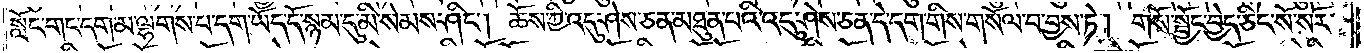སློང་གང་དག་མ་ལྷགས་པ་དག་ཡོད་དོ་སྙམ་དུ་མི་སེམས་ཤིང༌། ཆོས་ཀྱི་འདུ་ཤེས་ཅན་མཐུན་པའི་འདུ་ཤེས་ཅན་དེ་དག་གིས་གསོལ་བ་བྱས་ཏེ། གསོ་སྦྱོང་བྱེད་ཅིང་སོ་སོར་
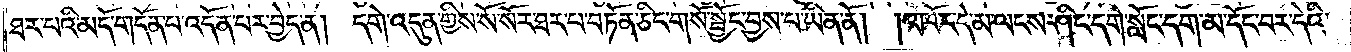ཐར་པའི་མདོ་གདོན་པ་འདོན་པར་བྱེད་ན། དགེ་འདུན་གྱིས་སོ་སོར་ཐར་པ་བཏོན་ཅིང་གསོ་སྦྱོང་བྱས་པ་ཡིན་ནོ། །འཁོར་དེ་མ་ལངས་ཤིང་དགེ་སློང་དག་མདོང་བར་དེའི་
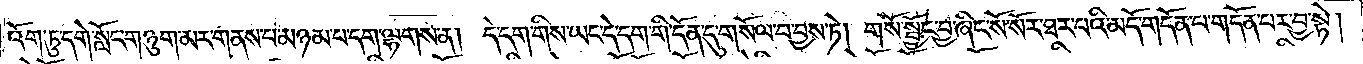འོག་ཏུ་དགེ་སློང་གཉུག་མར་གནས་པ་མཉམ་པ་དག་ལྷགས་ན། དེ་དག་གིས་ཡང་དེ་དག་གི་དོན་དུ་གསོལ་བ་བྱས་ཏེ། གསོ་སྦྱོང་བྱ་ཞིང་སོ་སོར་ཐར་བའི་མདོ་གདོན་པ་གདོན་པར་བྱ་སྟེ།
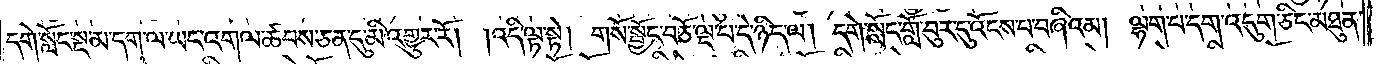དགེ་སློང་སྔ་མ་དག་ལ་ཡང་འགལ་ཚབས་ཅན་དུ་མི་འགྱུར་རོ། །འདི་ལྟ་སྟེ། གསོ་སྦྱོང་བཅོ་ལྔ་པ་དེ་ཉིད་ལ། དགེ་སློང་གློ་བུར་དུ་འོངས་པ་བཞིའམ། ལྷག་པ་དག་འདུག་ཅིང་མཐུན་
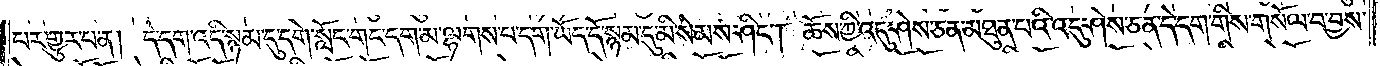པར་གྱུར་པ་ན། དེ་དག་འདི་སྙམ་དུ་དགེ་སློང་གང་དག་མ་ལྷགས་པ་དག་ཡོད་དོ་སྙམ་དུ་མི་སེམས་ཤིང༌། ཆོས་ཀྱི་འདུ་ཤེས་ཅན་མཐུན་པའི་འདུ་ཤེས་ཅན་དེ་དག་གིས་གསོལ་བ་བྱས་
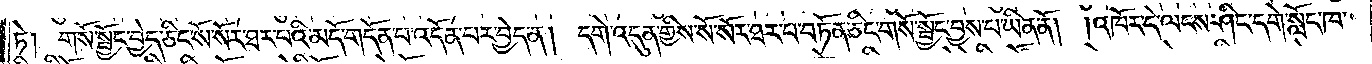ཏེ། གསོ་སྦྱོང་བྱེད་ཅིང་སོ་སོར་ཐར་པའི་མདོ་གདོན་པ་འདོན་པར་བྱེད་ན། དགེ་འདུན་གྱིས་སོ་སོར་ཐར་པ་བཏོན་ཅིང་གསོ་སྦྱོང་བྱས་པ་ཡིན་ནོ། །འཁོར་དེ་ལངས་ཤིང་དགེ་སློང་ཁ་
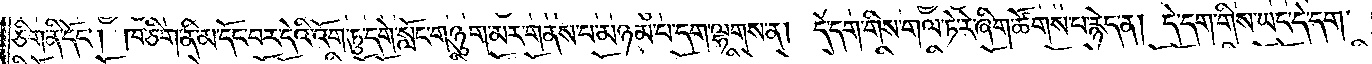ཅིག་ནི་དོང༌། ཁ་ཅིག་ནི་མ་དོང་བར་དེའི་འོག་ཏུ་དགེ་སློང་གཉུག་མར་གནས་པ་མཉམ་པ་དག་ལྷགས་ན། དེ་དག་གིས་གལ་ཏེ་རེ་ཞིག་ཚོགས་པ་རྙེད་ན། དེ་དག་གིས་ཡང་དེ་དག་
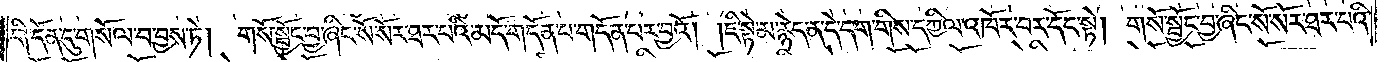གི་དོན་དུ་གསོལ་བ་བྱས་ཏེ། གསོ་སྦྱོང་བྱ་ཞིང་སོ་སོར་ཐར་པའི་མདོ་གདོན་པ་གདོན་པར་བྱའོ། །ཇི་སྟེ་མ་རྙེད་ན་དེ་དག་གིས་དཀྱིལ་འཁོར་བར་དོང་སྟེ། གསོ་སྦྱོང་བྱ་ཞིང་སོ་སོར་ཐར་པའི་
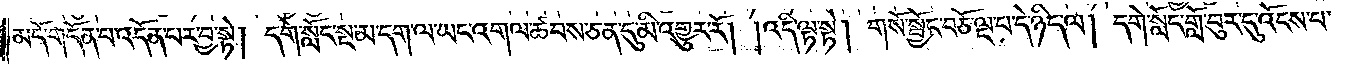མདོ་གདོན་པ་འདོན་པར་བྱ་སྟེ། དགེ་སློང་སྔ་མ་དག་ལ་ཡང་འགལ་ཚབས་ཅན་དུ་མི་འགྱུར་རོ། །འདི་ལྟ་སྟེ། གསོ་སྦྱོང་བཅོ་ལྔ་པ་དེ་ཉིད་ལ། དགེ་སློང་གློ་བུར་དུ་འོངས་པ་
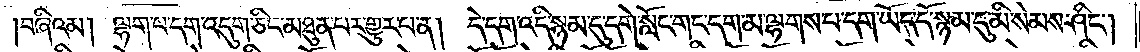བཞིའམ། ལྷག་པ་དག་འདུག་ཅིང་མཐུན་པར་གྱུར་པ་ན། དེ་དག་འདི་སྙམ་དུ་དགེ་སློང་གང་དག་མ་ལྷགས་པ་དག་ཡོད་དོ་སྙམ་དུ་མི་སེམས་ཤིང༌།
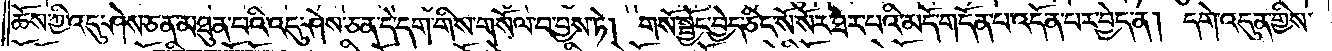ཆོས་ཀྱི་འདུ་ཤེས་ཅན་མཐུན་པའི་འདུ་ཤེས་ཅན་དེ་དག་གིས་གསོལ་བ་བྱས་ཏེ། གསོ་སྦྱོང་བྱེད་ཅིང་སོ་སོར་ཐར་པའི་མདོ་གདོན་པ་འདོན་པར་བྱེད་ན། དགེ་འདུན་གྱིས་
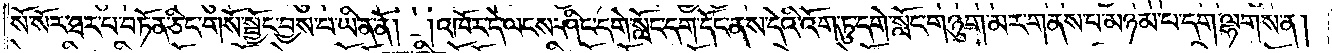སོ་སོར་ཐར་པ་བཏོན་ཅིང་གསོ་སྦྱོང་བྱས་པ་ཡིན་ནོ། །འཁོར་དེ་ལངས་ཤིང་དགེ་སློང་དག་དོང་ནས་དེའི་འོག་ཏུ་དགེ་སློང་གཉུག་མར་གནས་པ་མཉམ་པ་དག་ལྷགས་ན།
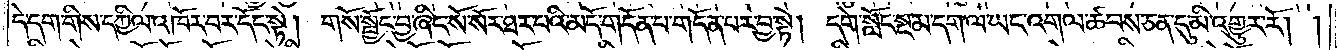དེ་དག་གིས་དཀྱིལ་འཁོར་བར་དོང་སྟེ། གསོ་སྦྱོང་བྱ་ཞིང་སོ་སོར་ཐར་པའི་མདོ་གདོན་པ་གདོན་པར་བྱ་སྟེ། དགེ་སློང་སྔ་མ་དག་ལ་ཡང་འགལ་ཚབས་ཅན་དུ་མི་འགྱུར་རོ། །
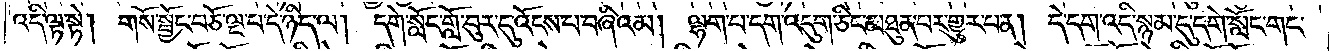འདི་ལྟ་སྟེ། གསོ་སྦྱོང་བཅོ་ལྔ་པ་དེ་ཉིད་ལ། དགེ་སློང་གློ་བུར་དུ་འོངས་པ་བཞིའམ། ལྷག་པ་དག་འདུག་ཅིང་མཐུན་པར་གྱུར་པ་ན། དེ་དག་འདི་སྙམ་དུ་དགེ་སློང་གང་
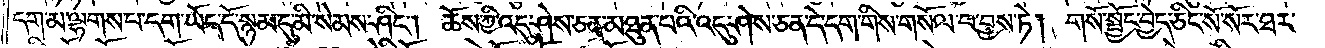དག་མ་ལྷགས་པ་དག་ཡོད་དོ་སྙམ་དུ་མི་སེམས་ཤིང༌། ཆོས་ཀྱི་འདུ་ཤེས་ཅན་མཐུན་པའི་འདུ་ཤེས་ཅན་དེ་དག་གིས་གསོལ་བ་བྱས་ཏེ། གསོ་སྦྱོང་བྱེད་ཅིང་སོ་སོར་ཐར་
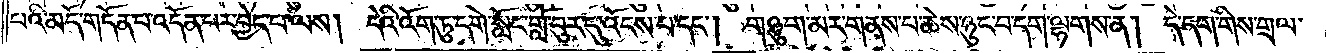པའི་མདོ་གདོན་བ་འདོན་པར་བྱེད་པ་ལས། དེའི་འོག་ཏུ་དགེ་སློང་གློ་བུར་དུ་འོངས་པ་དང༌། གཉུག་མར་གནས་པ་ཆེས་ཉུང་བ་དག་ལྷགས་ན། དེ་དག་གིས་གྲལ་
